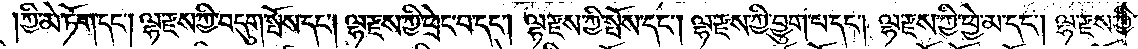ཀྱི་མེ་ཏོག་དང༌། ལྷ་རྫས་ཀྱི་བདུག་སྤོས་དང༌། ལྷ་རྫས་ཀྱི་ཕྲེང་བ་དང༌། ལྷ་རྫས་ཀྱི་སྤོས་དང༌། ལྷ་རྫས་ཀྱི་བྱུག་པ་དང༌། ལྷ་རྫས་ཀྱི་ཕྱེ་མ་དང༌། ལྷ་རྫས་ཀྱི་
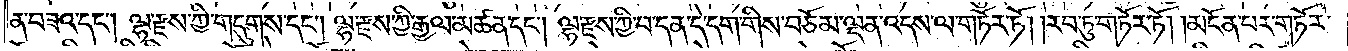ན་བཟའ་དང༌། ལྷ་རྫས་ཀྱི་གདུགས་དང༌། ལྷ་རྫས་ཀྱི་རྒྱལ་མཚན་དང༌། ལྷ་རྫས་ཀྱི་བ་དན་དེ་དག་གིས་བཅོམ་ལྡན་འདས་ལ་གཏོར་ཏོ། །རབ་ཏུ་གཏོར་ཏོ། །མངོན་པར་གཏོར་
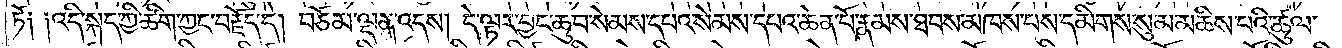ཏོ༑ ༑འདི་སྐད་ཀྱི་ཚིག་ཀྱང་བརྗོད་དེ། བཅོམ་ལྡན་འདས། དེ་ལྟར་བྱང་ཆུབ་སེམས་དཔའ་སེམས་དཔའ་ཆེན་པོ་རྣམས་ཐབས་མཁས་པས་དམིགས་སུ་མ་མཆིས་པའི་ཚུལ་
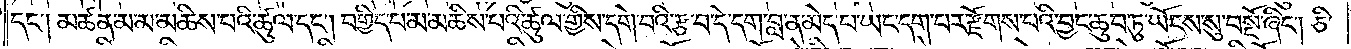དང༌། མཚན་མ་མ་མཆིས་པའི་ཚུལ་དང༌། བགྱིད་པ་མ་མཆིས་པའི་ཚུལ་གྱིས་དགེ་བའི་རྩ་བ་དེ་དག་བླ་ན་མེད་པ་ཡང་དག་པར་རྫོགས་པའི་བྱང་ཆུབ་ཏུ་ཡོངས་སུ་བསྔོ་ཞིང༌། ཅི་
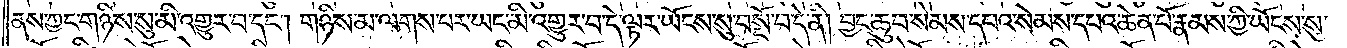ནས་ཀྱང་གཉིས་སུ་མི་འགྱུར་བ་དང༌། གཉིས་མ་ལགས་པར་ཡང་མི་འགྱུར་བ་དེ་ལྟར་ཡོངས་སུ་བསྔོ་བ་དེ་ནི། བྱང་ཆུབ་སེམས་དཔའ་སེམས་དཔའ་ཆེན་པོ་རྣམས་ཀྱི་ཡོངས་སུ་
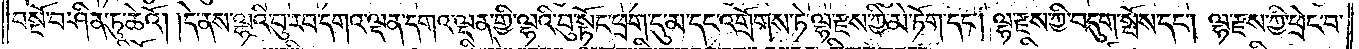བསྔོ་བ་ཤིན་ཏུ་ཆེའོ། །དེ་ནས་ལྷའི་བུ་རབ་དགའ་ལྡན་དགའ་ལྡན་གྱི་ལྷའི་བུ་སྟོང་ཕྲག་དུ་མ་དང་འགྲོགས་ཏེ་ལྷ་རྫས་ཀྱི་མེ་ཏོག་དང༌། ལྷ་རྫས་ཀྱི་བདུག་སྤོས་དང༌། ལྷ་རྫས་ཀྱི་ཕྲེང་བ་
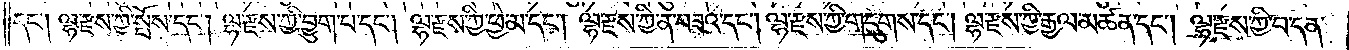དང༌། ལྷ་རྫས་ཀྱི་སྤོས་དང༌། ལྷ་རྫས་ཀྱི་བྱུག་པ་དང༌། ལྷ་རྫས་ཀྱི་ཕྱེ་མ་དང༌། ལྷ་རྫས་ཀྱི་ན་བཟའ་དང༌། ལྷ་རྫས་ཀྱི་གདུགས་དང༌། ལྷ་རྫས་ཀྱི་རྒྱལ་མཚན་དང༌། ལྷ་རྫས་ཀྱི་བ་དན་
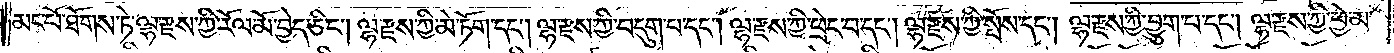མང་པོ་ཐོགས་ཏེ་ལྷ་རྫས་ཀྱི་རོལ་མོ་བྱེད་ཅིང༌། ལྷ་རྫས་ཀྱི་མེ་ཏོག་དང༌། ལྷ་རྫས་ཀྱི་བདུག་པ་དང༌། ལྷ་རྫས་ཀྱི་ཕྲེང་བ་དང༌། ལྷ་རྫས་ཀྱི་སྤོས་དང༌། ལྷ་རྫས་ཀྱི་བྱུག་པ་དང༌། ལྷ་རྫས་ཀྱི་ཕྱེ་མ་
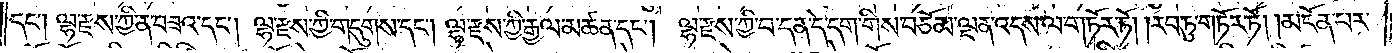དང༌། ལྷ་རྫས་ཀྱི་ན་བཟའ་དང༌། ལྷ་རྫས་ཀྱི་གདུགས་དང༌། ལྷ་རྫས་ཀྱི་རྒྱལ་མཚན་དང༌། ལྷ་རྫས་ཀྱི་བ་དན་དེ་དག་གིས་བཅོམ་ལྡན་འདས་ལ་གཏོར་ཏོ། །རབ་ཏུ་གཏོར་ཏོ། །མངོན་པར་
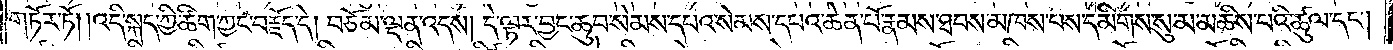གཏོར་ཏོ། །འདི་སྐད་ཀྱི་ཚིག་ཀྱང་བརྗོད་དེ། བཅོམ་ལྡན་འདས། དེ་ལྟར་བྱང་ཆུབ་སེམས་དཔའ་སེམས་དཔའ་ཆེན་པོ་རྣམས་ཐབས་མཁས་པས་དམིགས་སུ་མ་མཆིས་པའི་ཚུལ་དང༌།
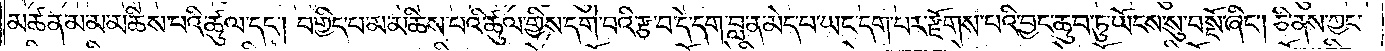མཚན་མ་མ་མཆིས་པའི་ཚུལ་དང༌། བགྱིད་པ་མ་མཆིས་པའི་ཚུལ་གྱིས་དགེ་བའི་རྩ་བ་དེ་དག་བླ་ན་མེད་པ་ཡང་དག་པར་རྫོགས་པའི་བྱང་ཆུབ་ཏུ་ཡོངས་སུ་བསྔོ་ཞིང༌། ཅི་ནས་ཀྱང་
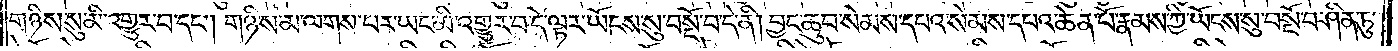གཉིས་སུ་མི་འགྱུར་བ་དང༌། གཉིས་མ་ལགས་པར་ཡང་མི་འགྱུར་བ་དེ་ལྟར་ཡོངས་སུ་བསྔོ་བ་དེ་ནི། བྱང་ཆུབ་སེམས་དཔའ་སེམས་དཔའ་ཆེན་པོ་རྣམས་ཀྱི་ཡོངས་སུ་བསྔོ་བ་ཤིན་ཏུ་
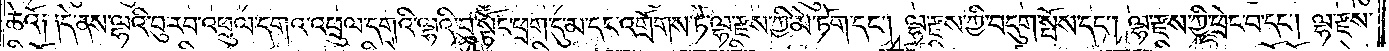ཆེའོ༑ ༑དེ་ནས་ལྷའི་བུ་རབ་འཕྲུལ་དགའ་འཕྲུལ་དགའི་ལྷའི་བུ་སྟོང་ཕྲག་དུ་མ་དང་འགྲོགས་ཏེ་ལྷ་རྫས་ཀྱི་མེ་ཏོག་དང༌། ལྷ་རྫས་ཀྱི་བདུག་སྤོས་དང༌། ལྷ་རྫས་ཀྱི་ཕྲེང་བ་དང༌། ལྷ་རྫས་
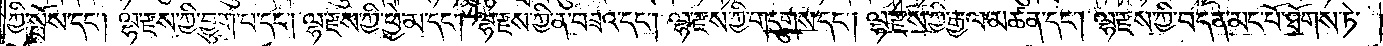ཀྱི་སྤོས་དང༌། ལྷ་རྫས་ཀྱི་བྱུག་པ་དང༌། ལྷ་རྫས་ཀྱི་ཕྱེ་མ་དང༌། ལྷ་རྫས་ཀྱི་ན་བཟའ་དང༌། ལྷ་རྫས་ཀྱི་གདུགས་དང༌། ལྷ་རྫས་ཀྱི་རྒྱལ་མཚན་དང༌། ལྷ་རྫས་ཀྱི་བ་དན་མང་པོ་ཐོགས་ཏེ་
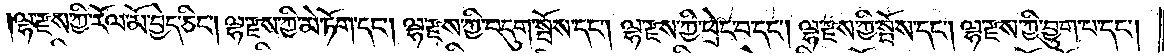ལྷ་རྫས་ཀྱི་རོལ་མོ་བྱེད་ཅིང༌། ལྷ་རྫས་ཀྱི་མེ་ཏོག་དང༌། ལྷ་རྫས་ཀྱི་བདུག་སྤོས་དང༌། ལྷ་རྫས་ཀྱི་ཕྲེང་བ་དང༌། ལྷ་རྫས་ཀྱི་སྤོས་དང༌། ལྷ་རྫས་ཀྱི་བྱུག་པ་དང༌།
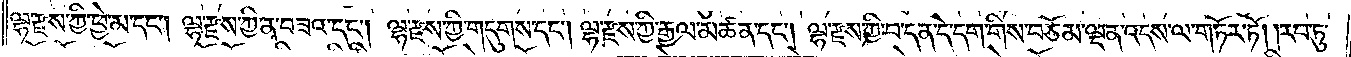ལྷ་རྫས་ཀྱི་ཕྱེ་མ་དང༌། ལྷ་རྫས་ཀྱི་ན་བཟའ་དང༌། ལྷ་རྫས་ཀྱི་གདུགས་དང༌། ལྷ་རྫས་ཀྱི་རྒྱལ་མཚན་དང༌། ལྷ་རྫས་ཀྱི་བ་དན་དེ་དག་གིས་བཅོམ་ལྡན་འདས་ལ་གཏོར་ཏོ། །རབ་ཏུ་
